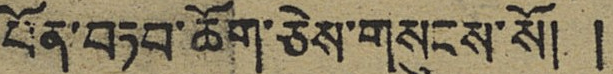བོན་བཏབ་ཆོག་ཅེས་གསུངས་སོ། །
